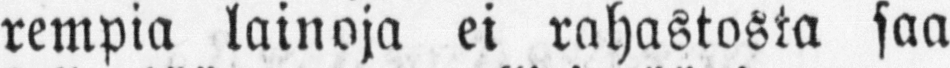rempia lainoja ei rahastosta saa
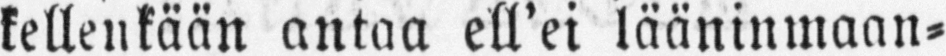kellenkään antaa ell'ei lääninmaan-
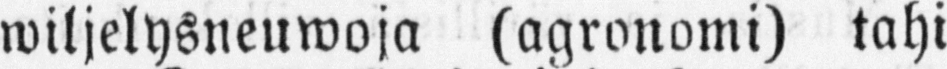wiljelysneuwoja (agronomi) tahi
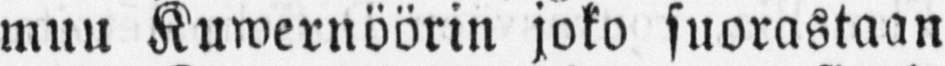muu Kuwernöörin joko suorastaan
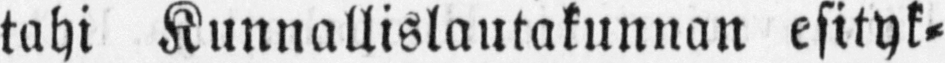tahi Kunnallislautakunnan esityk-
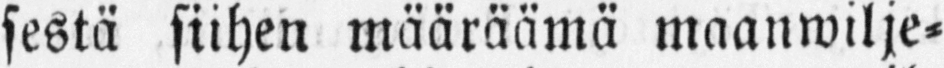sestä siihen määräämä maanwilje-
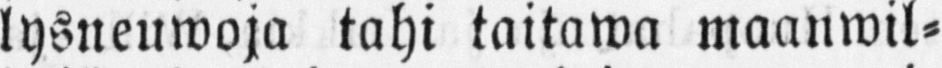lysneuwoja tahi taitawa maanwil-
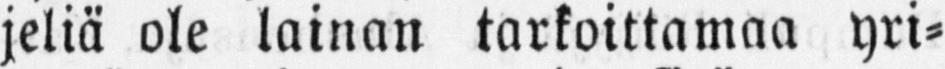jeliä ole lainan tarkoittamaa yri-
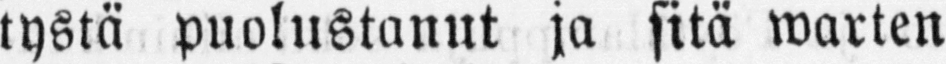tystä puolustanut ja sitä warten
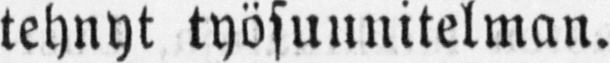tehnyt työsuunitelman.
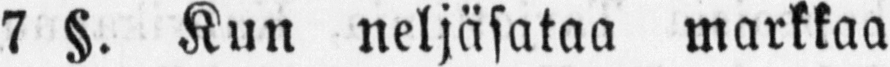7 §. Kun neljäsataa markkaa
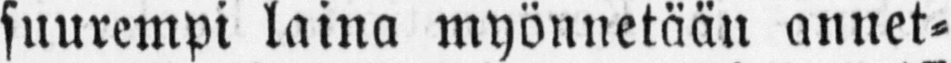suurempi laina myönnetään annet-
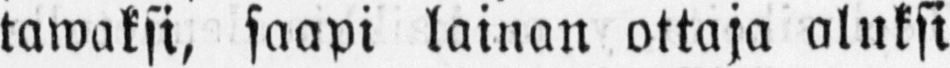tawaksi, saapi lainan ottaja aluksi
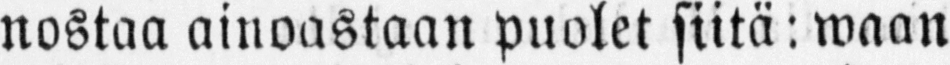nostaa ainoastaan puolet siitä : waan
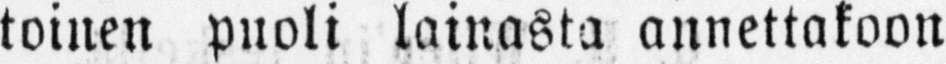toinen puoli lainasta annettakoon
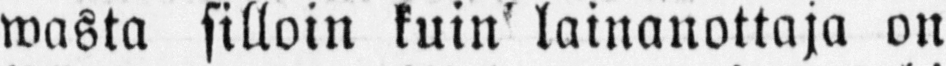wasta silloin kuin lainanottaja on
